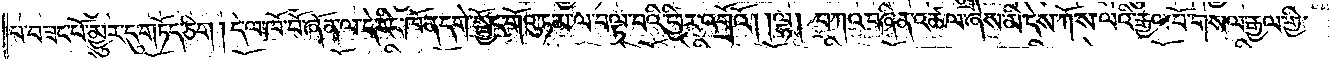པ་བཟང་པོ་མྱུར་དུ་གཏོད་ཅིག །དེ་ལ་ཁོ་བོ་ཞོན་ལ་དེ་རིང་ཁོ་ན་དགེ་སྦྱོང་གོའུ་ཏ་མ་ལ་བལྟ་བའི་ཕྱིར་འགྲོའོ། །ལྷ། བཀའ་བཞིན་འཚལ་ཞེས་མི་དེས་ཀོ་ས་ལའི་རྒྱལ་པོ་གསལ་རྒྱལ་གྱི་
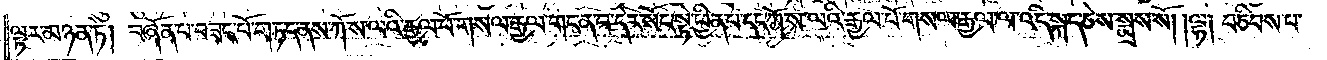ལྟར་མཉན་ཏེ། བཞོན་པ་བཟང་པོ་གཏད་ནས་ཀོ་ས་ལའི་རྒྱལ་པོ་གསལ་རྒྱལ་གང་ན་བ་དེར་སོང་སྟེ་ཕྱིན་པ་དང་ཀོ་ས་ལའི་རྒྱལ་པོ་གསལ་རྒྱལ་ལ་འདི་སྐད་ཅེས་སྨྲས་སོ། །ལྷ། བཅིབས་པ་
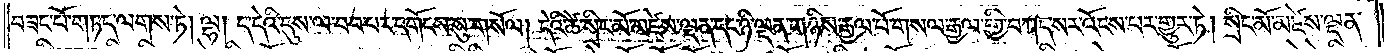བཟང་པོ་གཏད་ལགས་ཏེ། ལྷ། ད་དེའི་དུས་ལ་བབ་པར་དགོངས་སུ་གསོལ། དེའི་ཚེ་སྲིང་མོ་མཛེས་ལྡན་དང་ཉི་ལྡན་གཉིས་རྒྱལ་པོ་གསལ་རྒྱལ་གྱི་བཀད་སར་འོངས་པར་གྱུར་ཏེ། སྲིང་མོ་མཛེས་ལྡན་
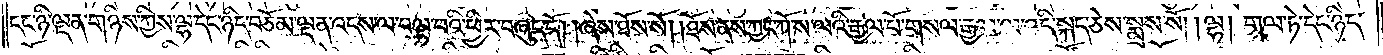དང་ཉི་ལྡན་གཉིས་ཀྱིས་ལྷ་དེང་ཉིད་བཅོམ་ལྡན་འདས་ལ་བལྟ་བའི་ཕྱིར་བཞུད་དོ། །ཞེས་ཐོས་སོ། །ཐོས་ནས་ཀྱང་ཀོ་ས་ལའི་རྒྱལ་པོ་གསལ་རྒྱལ་ལ་འདི་སྐད་ཅེས་སྨྲས་སོ། །ལྷ། གལ་ཏེ་དེང་ཉིད་
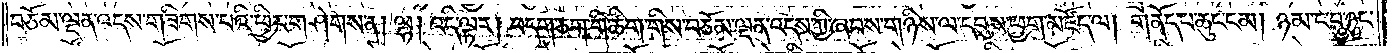བཅོམ་ལྡན་འདས་གཟིགས་པའི་ཕྱིར་གཤེགས་ན། ལྷ། འདི་ལྟར། བདག་ཅག་གི་ཚིག་གིས་བཅོམ་ལྡན་འདས་ཀྱི་ཞབས་གཉིས་ལ་དབུས་ཕྱག་མཛོད་ལ། གནོད་པ་ཆུང་ངམ། ཉམ་ང་བ་ཉུང་
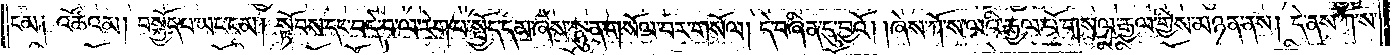ངམ༑ འཚོའམ། བསྐྱོད་པ་ཡང་ངམ། སྟོབས་དང་བདེ་བ་ལ་རེག་པ་སྤྱོད་དམ་ཞེས་སྙུན་གསོལ་པར་གསོལ། དེ་བཞིན་དུ་བྱའོ། །ཞེས་ཀོ་ས་ལའི་རྒྱལ་པོ་གསལ་རྒྱལ་གྱིས་མཉན་ནས། དེ་ནས་ཀོ་ས་
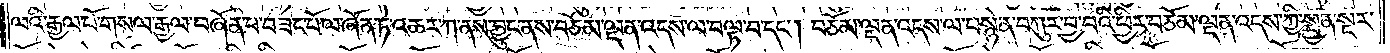ལའི་རྒྱལ་པོ་གསལ་རྒྱལ་བཞོན་པ་བཟང་པོ་ལ་ཞོན་ཏེ་འཆར་ཀ་ནས་བྱུང་ནས་བཅོམ་ལྡན་འདས་ལ་བལྟ་བ་དང༌། བཅོམ་ལྡན་འདས་ལ་བསྙེན་བཀུར་བྱ་བའི་ཕྱིར་བཅོམ་ལྡན་འདས་ཀྱི་སྤྱན་སྔར་
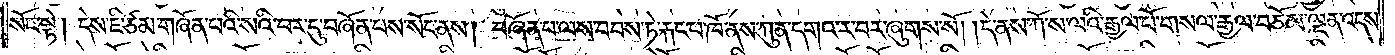སོང་སྟེ། དེས་ཇི་ཙམ་གཞོན་པའི་སའི་བར་དུ་བཞོན་པས་སོང་ནས། བཞོན་པ་ལས་བབས་ཏེ་རྐང་པ་ཁོ་ནས་ཀུན་དགའ་ར་བར་ཞུགས་སོ། །དེ་ནས་ཀོ་ས་ལའི་རྒྱལ་པོ་གསལ་རྒྱལ་བཅོམ་ལྡན་འདས་
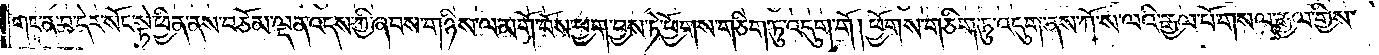གང་ན་བ་དེར་སོང་སྟེ་ཕྱིན་ནས་བཅོམ་ལྡན་འདས་ཀྱི་ཞབས་གཉིས་ལ་མགོ་བོས་ཕྱག་བྱས་ཏེ་ཕྱོགས་གཅིག་ཏུ་འདུག་གོ། ཕྱོགས་གཅིག་ཏུ་འདུག་ནས་ཀོ་ས་ལའི་རྒྱལ་པོ་གསལ་རྒྱལ་གྱིས་
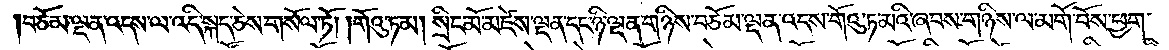།བཅོམ་ལྡན་འདས་ལ་འདི་སྐད་ཅེས་གསོལ་ཏོ། །གོའུ་ཏ་མ། སྲིང་མོ་མཛེས་ལྡན་དང་ཉི་ལྡན་གཉིས་བཅོམ་ལྡན་འདས་གོའུ་ཏ་མའི་ཞབས་གཉིས་ལ་མགོ་བོས་ཕྱག་
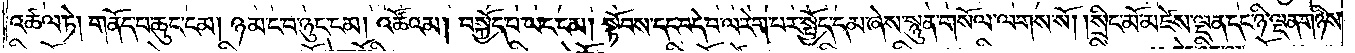འཚལ་ཏེ། གནོད་པ་ཆུང་ངམ། ཉམ་ང་བ་ཉུང་ངམ། འཚོའམ། བསྐྱོད་པ་ཡང་ངམ། སྟོབས་དང་བདེ་བ་ལ་རེག་པར་སྤྱོད་དམ་ཞེས་སྙུན་གསོལ་ལགས་སོ། །སྲིང་མོ་མཛེས་ལྡན་དང་ཉི་ལྡན་གཉིས་
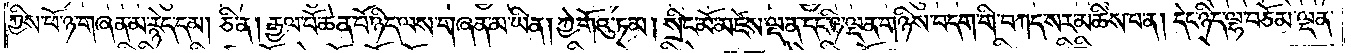ཀྱིས་ཕོ་ཉ་གཞན་མ་རྙེད་དམ། ཅི་ན། རྒྱལ་པོ་ཆེན་པོ་ཉིད་ལས་གཞན་མ་ཡིན། ཀྱེ་གོའུ་ཏ་མ། སྲིང་མོ་མཛེས་ལྡན་དང་ཉི་ལྡན་གཉིས་བདག་གི་བཀད་སར་མཆིས་པ་ན། དེང་ཉིད་ལྷ་བཅོམ་ལྡན་
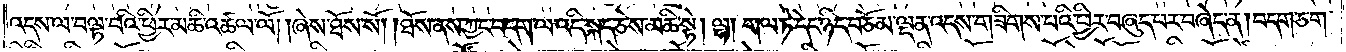འདས་ལ་བལྟ་བའི་ཕྱིར་མཆི་འཚལ་ལོ། །ཞེས་ཐོས་སོ། །ཐོས་ནས་ཀྱང་བདག་ལ་འདི་སྐད་ཅེས་མཆི་སྟེ། ལྷ། གལ་ཏེ་དེང་ཉིད་བཅོམ་ལྡན་འདས་གཟིགས་པའི་ཕྱིར་བཞུད་པར་བཞེད་ན། བདག་ཅག་
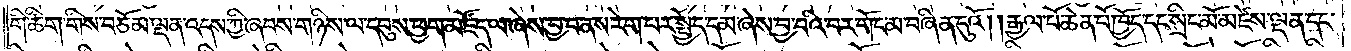གི་ཚིག་གིས་བཅོམ་ལྡན་འདས་ཀྱི་ཞབས་གཉིས་ལ་དབུས་ཕྱག་མཛོད་ལ་ཞེས་བྱ་བ་ནས་རེག་པར་སྤྱོད་དམ་ཞེས་བྱ་བའི་བར་གོང་མ་བཞིན་དུའོ། །རྒྱལ་པོ་ཆེན་པོ་ཁྱོད་དང་སྲིང་མོ་མཛེས་ལྡན་དང་
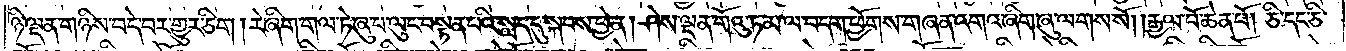ཉི་ལྡན་གཉིས་བདེ་བར་གྱུར་ཅིག །རེ་ཞིག་གལ་ཏེ་ཞུ་པ་ལུང་བསྟན་པའི་སླད་དུ་སྐབས་ཕྱེ་ན། ཤེས་ལྡན་གོའུ་ཏ་མ་ལ་བདག་ཕྱོགས་གཞན་འགའ་ཞིག་ཞུ་ལགས་སོ། །རྒྱལ་པོ་ཆེན་པོ། ཅི་དང་ཅི་
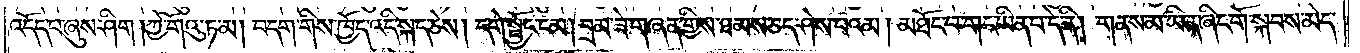འདོད་པ་ཞུས་ཤིག །ཀྱེ་གོའུ་ཏ་མ། བདག་གིས་ཁྱོད་འདི་སྐད་ཅེས། དགེ་སྦྱོང་ངམ། བྲམ་ཟེ་གཞན་གྱིས་ཐམས་ཅད་ཤེས་པའམ། མཐོང་བ་གང་ཡིན་པ་དེ་ནི། གནས་མ་ཡིན་ཞིང་གོ་སྐབས་མེད་
